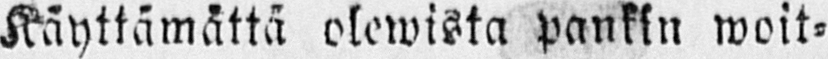Käyttämättä olewista pankin woit-
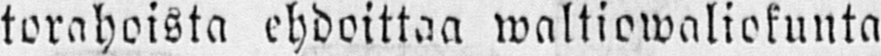torahoista ehdoittaa waltiowaliokunta
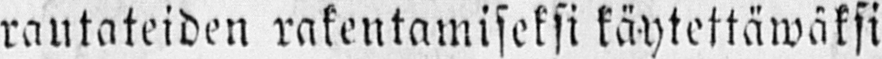rantateiden rakentamiseksi käytettäwäksi
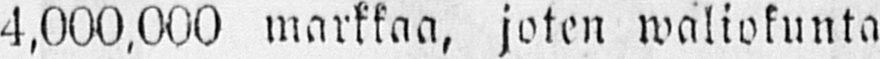4,000,000 markkaa, joten waliokunta
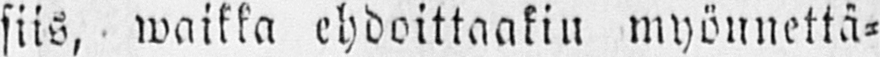siis, waikka ehdoittaakin myönnettä-
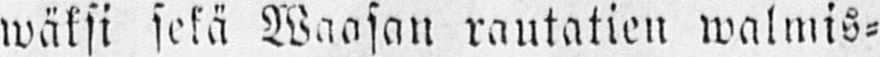wäksi sekä Waasan rautatien walmis-
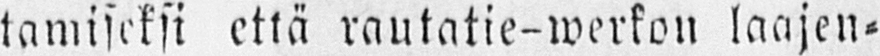tamiseksi että rautatie-werkon laajen-
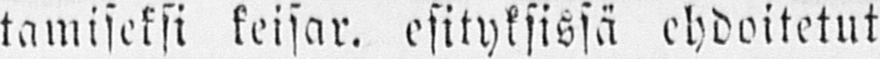tamiseksi keisar. esityksissä ehdoitetut
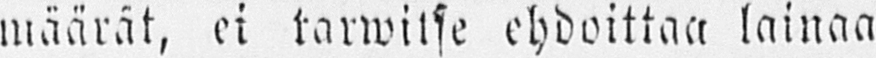määrät, ei tarwitse ehdoittaa lainaa
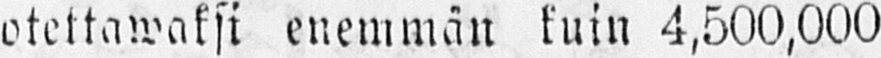otettawaksi enemmän kuin 4,500,000
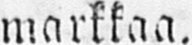markkaa.
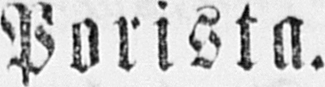Porista.
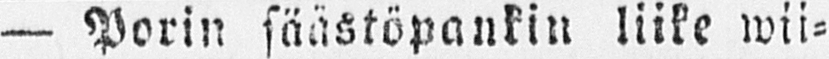— Porin säästöpankin liike wii-
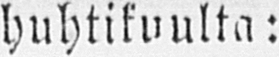me huhtikuulta:
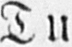Tuloja:
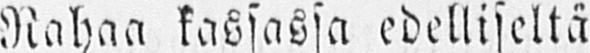Rahaa kasassa edelliseltä
